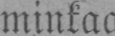minkaa
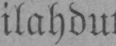ilahdu!
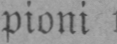pioni t
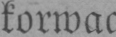tonvaci
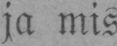ja mis
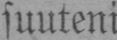suuteni
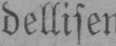dellisen
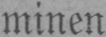minen
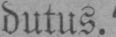dutus.'
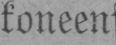toneens
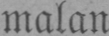malan
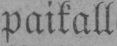paikall,
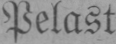Pelast
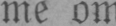me om
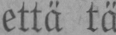että tä
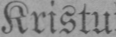Kristus
